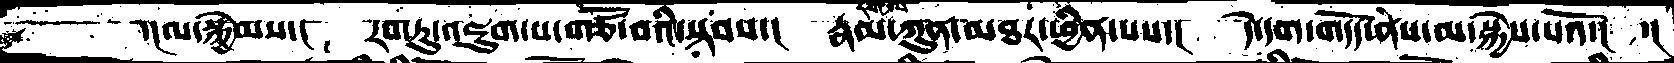་།ལ་སྐྱེམས་།  རབ་ཏུ་འཇུག་པ་གཙོ་བའི་སྟབས་།  རྣམ་དག་ལ་ཀུན་མཐར་ཕྱིན་པས་།  དེ་དག་གདོད་ནས་མ་སྐྱེས་པའོ་།  ་།
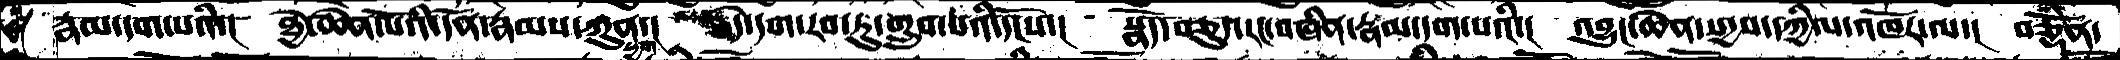རྣམ་དག་པའི་།  ཐྱེ་ཆེན་པོའི་དོན་རྣམས་ཀུན་།  དེ་དག་རབ་ཏུ་གྲུབ་པའི་དངོས་།  སྣོད་བཅུད་རང་བཞིན་རྣམ་དག་པའི་།  འབྱུང་ཆེན་སདྱས་དཀྱིལ་འཁོར་ལ་།  བཅྡོཾན་
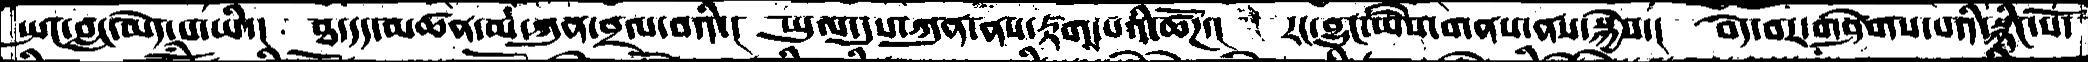སྤང་བླང་མེད་པ་ཡི་།  ཐ་དད་མཚན་མ་ཀུན་བྲལ་བའི་།  ཡུལ་དུས་ཀུན་ནས་རྟགས་པའི་ཚོཌ་།  རང་བྱུང་ཡཻས་གནས་ནས་སྐྱེས་།  བདེ་བར་གཤེགས་པའི་སྙིང་པོ་
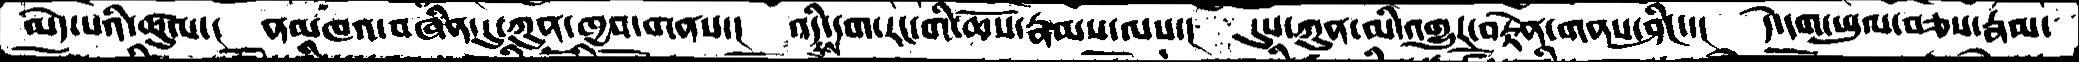མེད་པའི་ཚུལ་།  ནམཁའ་བཞིན་དུ་ཀུན་ཁྱབ་གནས་།  འདི་དག་རང་གི་ཆོས་རྣམས་ལས་།  དུས་ཀུན་མི་འགྱུར་བརྟེན་གནས་ཤིང་་།  དེ་དག་ཕུལ་བཅས་རྣམ་
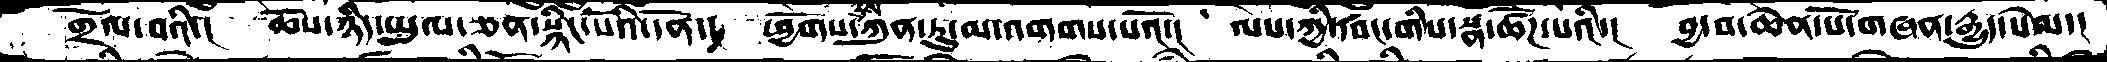གྲོལ་བའི་།  ཆོས་ཉིད་ཡུལ་ཅན་སྙིང་པོའི་དོན་།  ཕྱོགས་དུས་ཀུན་ཏུ་མ་འགགས་པའོ་།  ལས་ཀྱི་དབང་གིས་སྣ་ཚོཌ་པའི་།  བྱ་བ་ཆེན་པོ་གཞན་རྒྱུད་སེམ་།
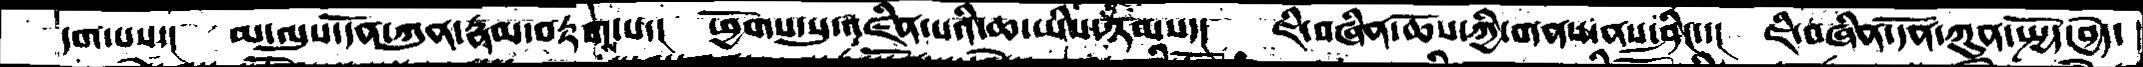དག་པས་།  མ་ལུས་དོན་ཀུན་རྣམ་བརྟགས་པ་།  ཕྱོགས་སུ་འཛིན་པའི་ཆ་ཡིས་ཉམས་།  ཇི་བཞིན་ཆོས་ཀྱི་གནས་ནས་ཤིང་།  ཇི་བཞིན་དོན་ཀུན་སྤྱོད་བྱེད་
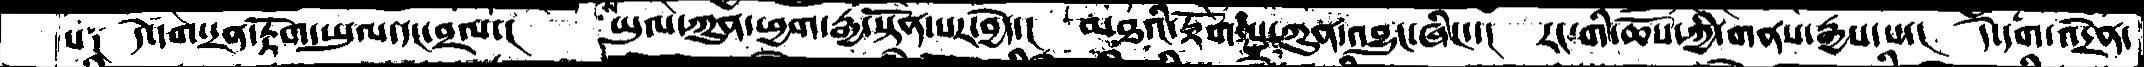པ༑  དེ་དག་དྲན་རྟོག་ཡུལ་དང་བྲལ་།  ཡུལ་ཀུན་ཕྱག་རྒྱ་སྟོན་པར་བྱེད་།  མཐའི་རྟོག་པ་ཀུན་འབྱུང་ཞིང་་།  རང་གི་ཆོས་ཀྱི་གནས་རྒྱས་པ་།  དེ་དག་འདྲེན་
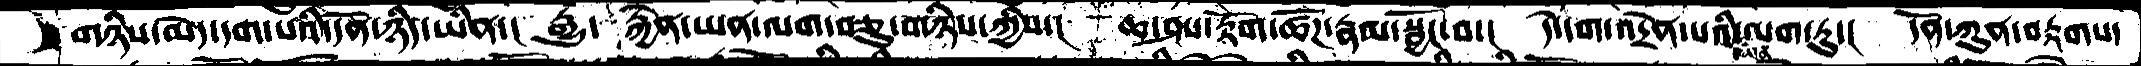གཉིས་མེད་དག་པའི་དོན་ཉིད་ཡིན་།  རྒྱུ་རྐྱེན་ཡན་ལག་བཅུ་གཉིས་ཀྱིས་།  ཆ་ཤས་རྟོག་ཚོཌ་རྣམ་སྦྱོང་བ་།  དེ་དག་འདྲེན་པའི་ཡན་ལག་ཏུ་།  དོན་ཀུན་བརྟགས་
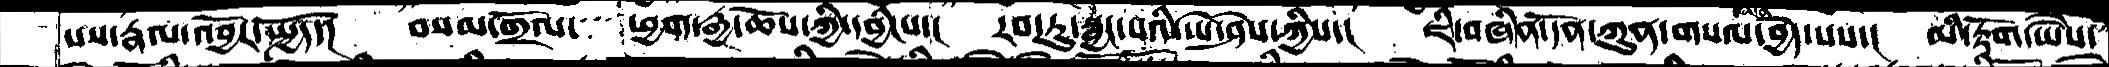པས་རྣལ་འབྱོར་སྤྱོད་།  བསམ་གྲོལ་་་་ཕྱག་རྒྱ་ཆོས་ཀྱི་དབྱིངས་།  རབ་ཏུ་སྦྱང་པའི་ཡེ་ཤེས་ཀྱིས་།  ཇི་བཞིན་དོན་ཀུན་གསལ་བྱེད་པས་།  མི་རྟོག་ཡཻས་
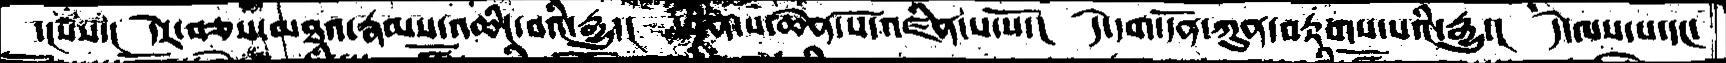་།པས་།  དེར་བཅས་མཐའ་རྣམས་འཆིང་བའི་རྒྱུ་།  བདེན་པ་ཆེན་པོ་འཛིན་པ་པོ་།  དེ་དག་དོན་ཀུན་བརྟགས་པའི་རྒྱུ་།  དེ་ལས་པ་དང་
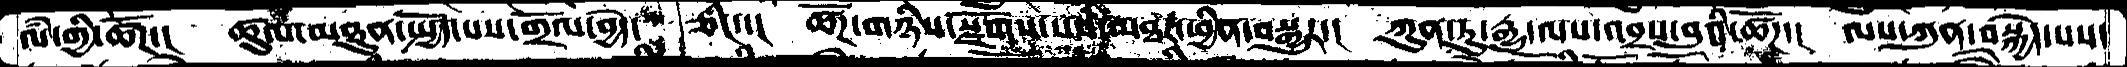ལཾ་གྱི་ཚོཌ་།  ཚུལ་མཐུན་སྤྱོད་པས་གྲོལ་བྱེད་ཅིང་་།  ཚོཌ་གཉིས་སྫོགས་པའི་མཐར་ཕྱིན་བསྒྱུར་།  ཀུན་ཏུ་རྒྱུ་ལས་འབྲས་བུའི་ཚོཌ་།  ལས་ཀུན་བསྐྱེད་པས་
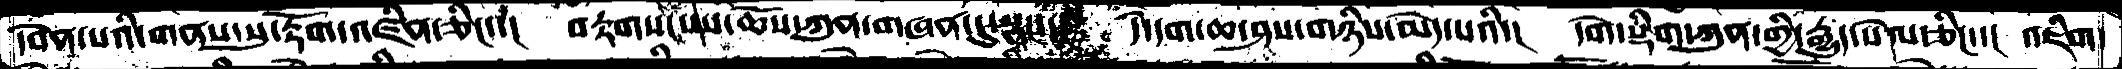དབེན་པའི་གནས་སུ་རྟོག་འཛིན་ཅིང་་།  བརྟགས་པས་ཆོས་ཀུན་གཞན་དུ་སྣང་་།  དེ་དག་ཆ་ཤས་གཉིས་མེད་པའི་།  དགེ་སྡིག་ཀུན་གྱི་རྒྱུད་སེལ་ཅིང་་།  འཇིག
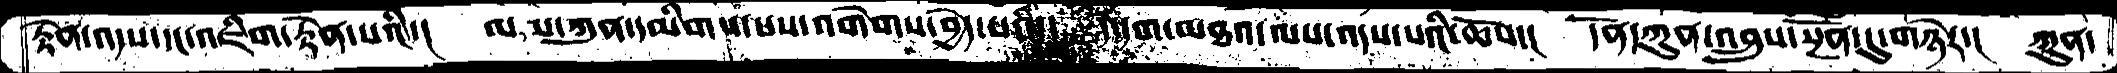རྟེན་འདས་དང་འཇིག་རྟེན་པའི་།  ལས་ཀུན་དམིགས་པས་འགེགས་བྱེད་པའི་།  དེ་དག་མཐའ་ལས་འདས་པའི་ཆོས་།  དོན་ཀུན་འབྲུས་སྔོན་དུ་གཉེར་།  ཀུན་
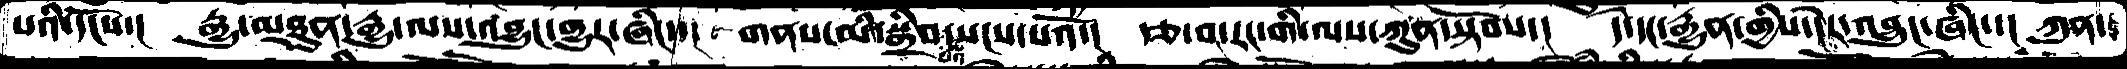པའི་དངོས་།  རྒྱུ་མཐུན་རྒྱུ་ལས་འབྱུང་གྱུར་ཞིང་་།  གནས་མི་སྒྲིབ་པའི་ཡངས་པའོ་།  རྩ་བ་རང་གི་ལས་ཀུན་སྟོབས་།  དེ་དང་རྒྱུན་གྱིས་དེར་འབྱུང་ཞིང་་།  ཀུན་
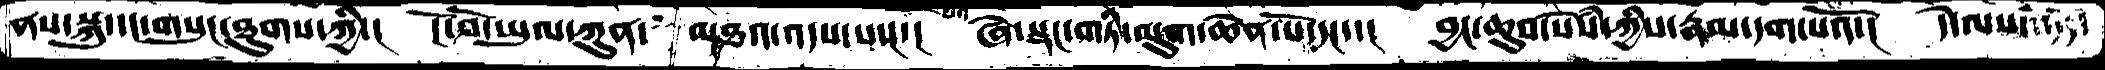ནས་སྐུ་དང་གསུང་ཐུགས་ཀྱི་།  ངོ་བོ་ཡུལ་ཀུན་མཐའ་འདས་པས་།  ཞེ་སྡང་གཏི་མུག་ཆེན་པོ་དང་་།  བྱང་ཆུབ་སེཾས་ཀྱིས་རྣམ་དག་པའོ་།  དེ་ལས་
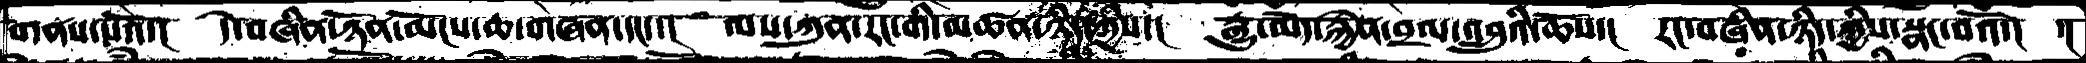གནས་པའོ་།  དེ་བཞིན་ཉོན་མོངས་ཆ་གཞན་དང་་།  ལས་ཀུན་རང་གི་མཚན་ཉིད་ཀྱིས་།  རྒྱུ་མེད་རྐྱེན་བྲལ་འབྲུའི་ཆོས་།  རང་བཞིན་ཉིད་ཀྱིས་སྣང་བའོ་།  ་།
